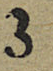3
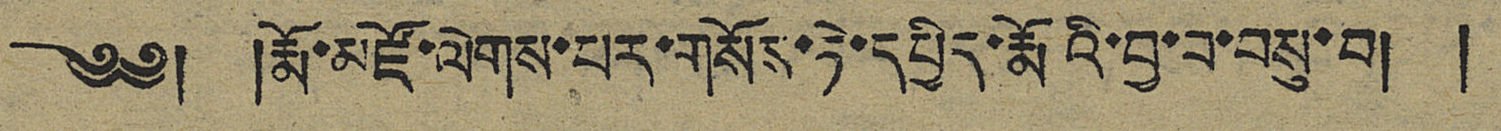༄༅། །རྨོ་མཛོ་ལེགས་པར་གསོས་ཏེ་དཔྱིད་རྨོའི་བྱ་བ་བསུ་བ། །
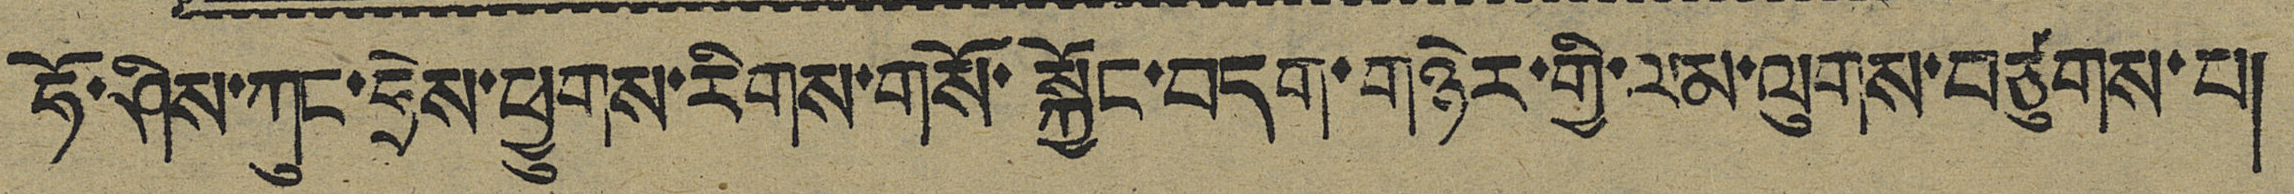ཧོ་ཤིས་ཀུང་ཧྲེས་ཕྱུགས་རིགས་གསོ་སྐྱོང་བདག་གཉེར་གྱི་ལམ་ལུགས་བཙུགས་པ།
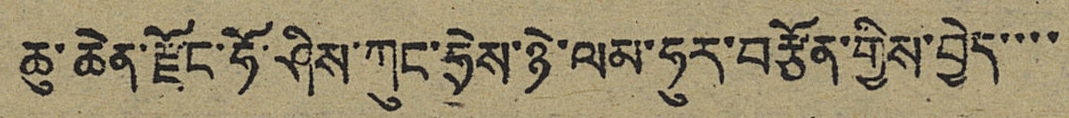ཆུ་ཆེན་རྫོང་ཧོ་ཤིས་ཀུང་ཧྲེས་ཉེ་ལམ་ཧུར་བརྩོན་གྱིས་བྱེད་་་་
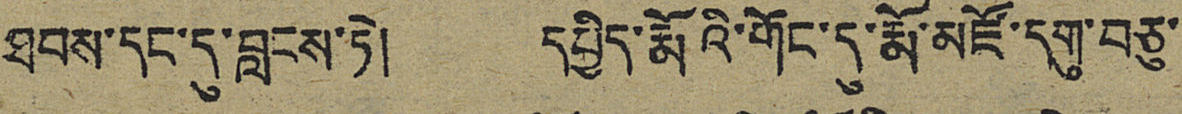ཐབས་དང་དུ་བླངས་ཏེ། དཔྱིད་རྨོའི་གོང་དུ་རྨོ་མཛོ་དགུ་བཅུ་
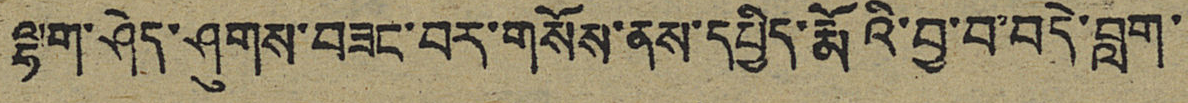ལྷག་ཤེད་ཤུགས་བཟང་བར་གསོས་ནས་དཔྱིད་རྨོའི་བྱ་བ་བདེ་བླག་
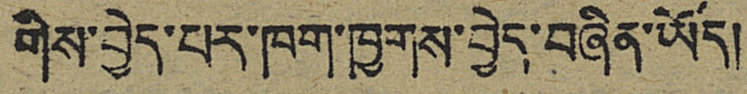གིས་བྱེད་པར་ཁག་ཁྱགས་བྱེད་བཞིན་ཡོད།
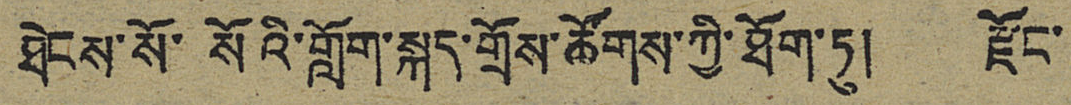ཐེངས་སོ་སོའི་གློག་སྐད་གྲོས་ཐོགས་ཀྱི་ཐོག་ཏུ། རྫོང་
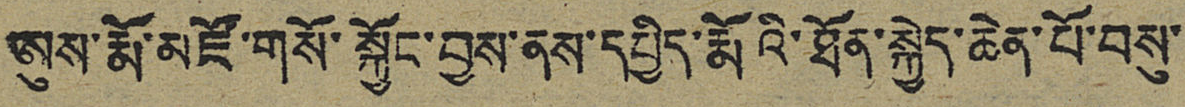ཨུས་རྨོ་མཛོ་གསོ་སྐྱོང་བྱས་ནས་དཔྱིད་རྨོའི་ཐོན་སྐྱེད་ཆེན་པོ་བསུ་
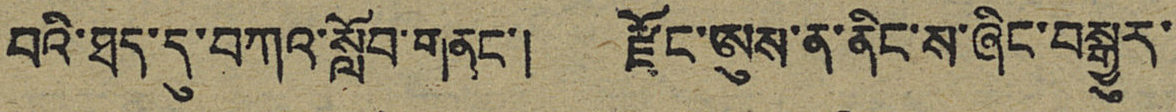བའི་ཐད་དུ་བཀའ་སློབ་གནང་། རྫོང་ཨུས་ན་ནིང་ས་ཞིང་བསྒྱུར་
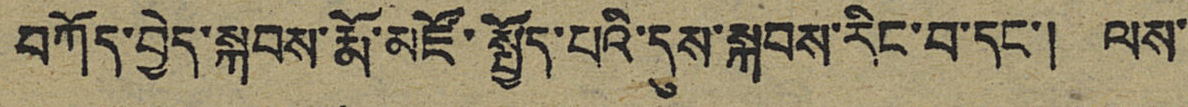བཀོད་བྱེད་སྐབས་རྨོ་མཛོ་སྤྱོད་པའི་དུས་སྐབས་རིང་བ་དང་། ལས་
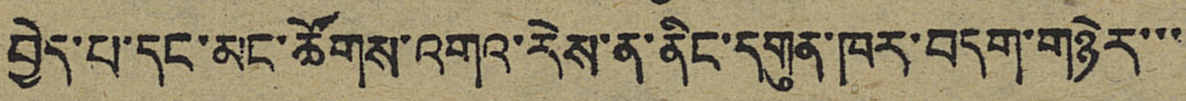བྱེད་པ་དང་མང་ཚོགས་འགའ་རེས་ན་ནིང་དགུན་ཁར་བདག་གཉེར་་་
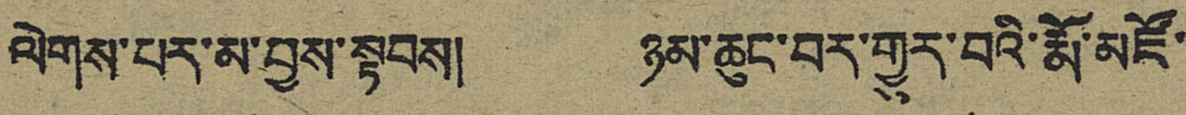ལེགས་པར་མ་བྱས་སྟབས། ཉམ་ཆུང་བར་གྱུར་བའི་རྨོ་མཛོ་
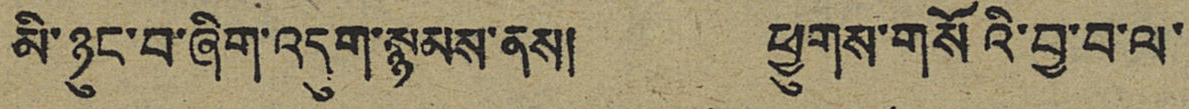མི་ཉུང་བ་ཞིག་འདུག་སྙམས་ནས། ཕྱུགས་གསོའི་བྱ་བ་ལ་
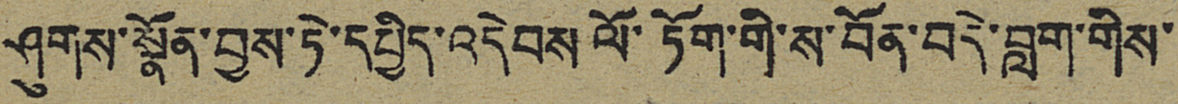ཤུགས་སྣོན་བྱས་ཏེ་དཔྱིད་འདེབས་ལོ་ཏོག་གི་ས་བོན་བདེ་བླག་གིས་
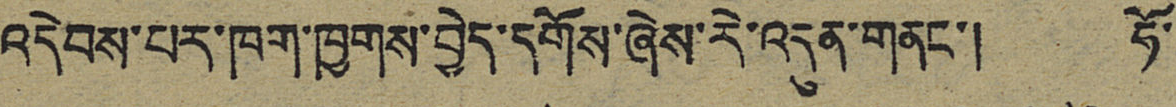འདེབས་པར་ཁག་ཁྱགས་བྱེད་དགོས་ཞེས་རེ་འདུན་གནང་། ཧོ་
